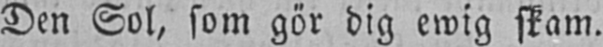Den Sol, som gör dig ewig skam.
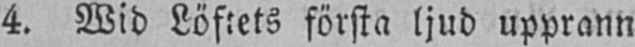4. Wid Löftets första ljud upprann
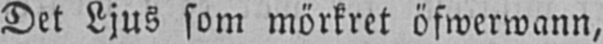Det Ljus som mörkret öfwerwann,
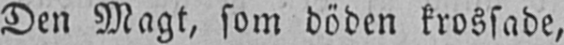Den Magt, som döden krossade,
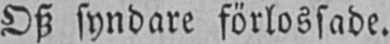Osz syndare förlossade.
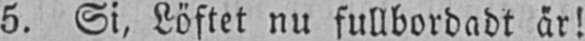5. Si, Löftet nu fullbordadt är!
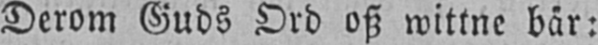Derom Guds Ord osz wittne bär:
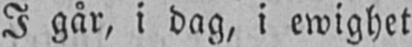I går, i dag, i ewighet
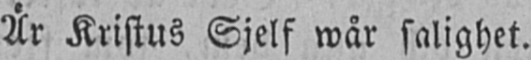Är Kristus Sjelf wår salighet.
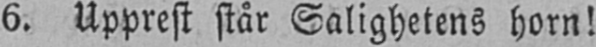6. Upprest står Salighetens horn!
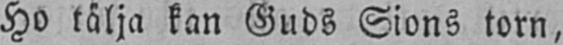Ho tälja kan Guds Sions torn,
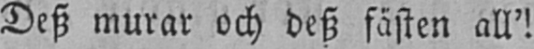Desz murar och desz fästen all'!
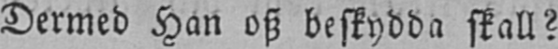Dermed Han osz beskydda skall?
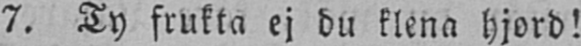7. Ty frukta ej du klena hjord!
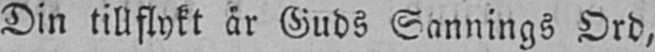Din tillflykt är Guds Sannings Ord,
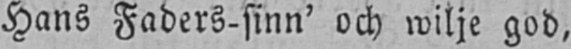Hans Faders-sinn' och wilje god,
